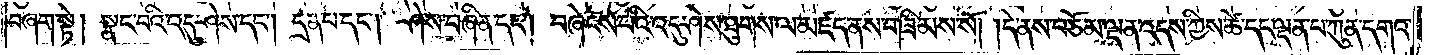བཞག་སྟེ། སྣང་བའི་འདུ་ཤེས་དང༌། དྲན་པ་དང༌། ཤེས་བཞིན་དང༌། བཞེངས་པའི་འདུ་ཤེས་ཐུགས་ལ་མཛད་ནས་གཟིམས་སོ། །དེ་ནས་བཅོམ་ལྡན་འདས་ཀྱིས་ཚེ་དང་ལྡན་པ་ཀུན་དགའ་
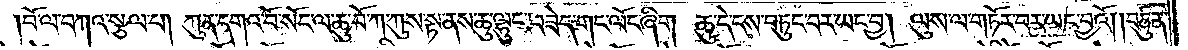བོ་ལ་བཀའ་སྩལ་པ། ཀུན་དགའ་བོ་སོང་ལ་ཆུ་བོ་ཀ་ཀུས་སྟ་ནས་ཆུ་ལྷུང་བཟེད་གང་ལོང་ཞིག །ཆུ་དེ་ངས་བཏུང་བར་ཡང་བྱ། ལུས་ལ་གཏོར་བར་ཡང་བྱའོ། །བཙུན་
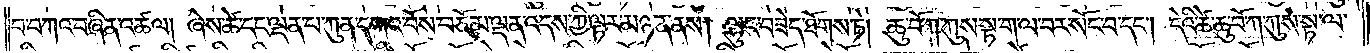པ་བཀའ་བཞིན་འཚལ། ཞེས་ཚེ་དང་ལྡན་པ་ཀུན་དགའ་བོས་བཅོམ་ལྡན་འདས་ཀྱི་ལྟར་མཉན་ནས། ལྷུང་བཟེད་ཐོགས་ཏེ། ཆུ་བོ་ཀ་ཀུས་སྟ་ག་ལ་བར་སོང་བ་དང༌། དེའི་ཚེ་ཆུ་བོ་ཀ་ཀུས་སྟ་ལ་
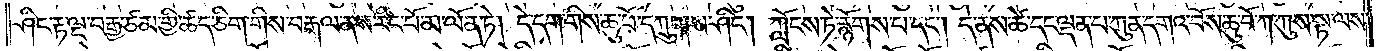ཤིང་རྟ་ལྔ་བརྒྱ་ཙམ་གྱི་ཚད་ཅིག་གིས་བརྒལ་ནས་རིང་པོ་མ་ལོན་ཏེ། དེ་དག་གིས་ཆུ་བོ་དཀྲུགས་ཤིང༌། ཀློངས་ཏེ་རྙོགས་པ་དང༌། དེ་ནས་ཚེ་དང་ལྡན་པ་ཀུན་དགའ་བོས་ཆུ་བོ་ཀ་ཀུས་སྟ་ལས་
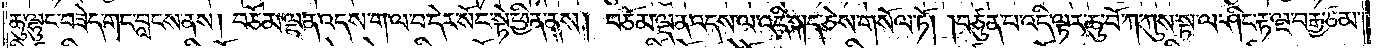ཆུ་ལྷུང་བཟེད་གང་བླངས་ནས། བཅོམ་ལྡན་འདས་ག་ལ་བ་དེར་སོང་སྟེ་ཕྱིན་ནས། བཅོམ་ལྡན་འདས་ལ་འདི་སྐད་ཅེས་གསོལ་ཏོ། །བཙུན་པ་འདི་ལྟར་ཆུ་བོ་ཀ་ཀུས་སྟ་ལ་ཤིང་རྟ་ལྔ་བརྒྱ་ཙམ་
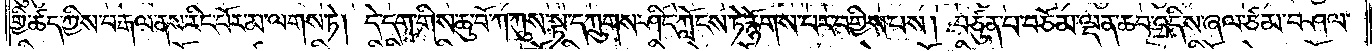གྱི་ཚད་ཀྱིས་བརྒལ་ནས་རིང་པོར་མ་ལགས་ཏེ། དེ་དག་གིས་ཆུ་བོ་ཀ་ཀུས་སྟ་དཀྲུགས་ཤིང་ཀློངས་ཏེ་རྙོགས་པར་བགྱིས་པས། བཙུན་པ་བཅོམ་ལྡན་ཆབ་འདིས་ཞལ་ཙམ་བཤལ་
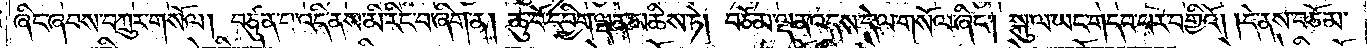ཞིང་ཞབས་བཀྲུར་གསོལ། །བཙུན་པ་འདི་ནས་མི་རིང་བ་ཞིག་ན། ཆུ་བོ་དབྱིག་ལྡན་མཆིས་ཏེ། བཅོམ་ལྡན་འདས་དེ་ལ་གསོལ་ཞིང༌། སྐུ་ལ་ཡང་གདབ་པར་བགྱིའོ། །དེ་ནས་བཅོམ་
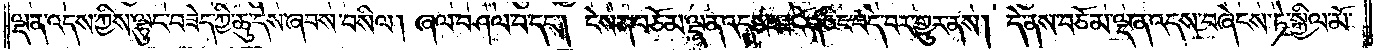ལྡན་འདས་ཀྱིས་ལྷུང་བཟེད་ཀྱི་ཆུ་དས་ཞབས་བསིལ། ཞལ་བཤལ་བ་དང༌། ངེས་ན་བཅོམ་ལྡན་འདས་(བཟོད)་ཅིང་བདེ་བར་གྱུར་ནས། དེ་ནས་བཅོམ་ལྡན་འདས་བཞེངས་ཏེ་སྐྱིལ་མོ་
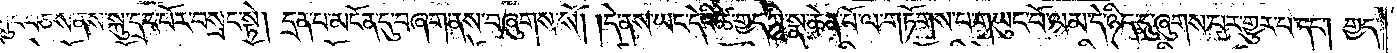ཀྲུང་བཅས་ནས་སྐུ་དྲང་པོར་བསྲང་སྟེ། དྲན་པ་མངོན་དུ་བཞག་ནས་བཞུགས་སོ། །དེ་ནས་ཡང་དེའི་ཚེ་གྱད་ཀྱི་སྣ་ཆེན་པོ་ལ་གཏོགས་པ་གཡུང་པོ་ལམ་དེ་ཉིད་དུ་ཞུགས་པར་གྱུར་བ་དང༌། གྱད་
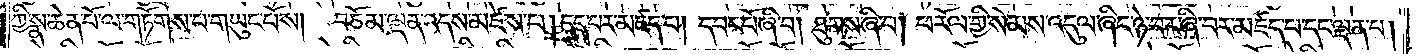ཀྱི་སྣ་ཆེན་པོ་ལ་གཏོགས་པ་གཡུང་པོས། བཅོམ་ལྡན་འདས་མཛེས་པ། དད་པར་མཛད་པ། དབང་པོ་ཞི་བ། ཐུགས་ཞི་བ། ཕ་རོལ་གྱི་སེམས་འདུལ་ཞིང་ཉེ་བར་ཞི་བར་མཛད་པ་དང་ལྡན་པ།
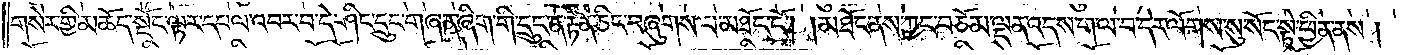གསེར་གྱི་མཆོད་སྡོང་ལྟར་དཔལ་འབར་བ་དེ་ཤིང་དྲུང་གཞན་ཞིག་གི་དྲུང་ན་རྟེན་ཅིང་བཞུགས་པ་མཐོང་ངོ༌། །མཐོང་ནས་ཀྱང་བཅོམ་ལྡན་འདས་ག་ལ་བ་དེར་ལོགས་སུ་སོང་སྟེ་ཕྱིན་ནས།
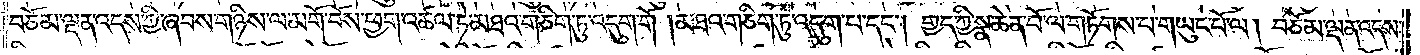བཅོམ་ལྡན་འདས་ཀྱི་ཞབས་གཉིས་ལ་མགོ་བོས་ཕྱག་འཚལ་ཏེ་མཐའ་གཅིག་ཏུ་འདུག་གོ །མཐའ་གཅིག་ཏུ་འདུག་པ་དང༌། གྱད་ཀྱི་སྣ་ཆེན་པོ་ལ་གཏོགས་པ་གཡུང་པོ་ལ། བཅོམ་ལྡན་འདས་
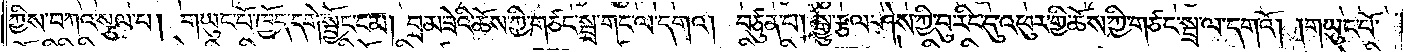ཀྱིས་བཀའ་སྩལ་པ། གཡུང་པོ་ཁྱོད་དགེ་སྦྱོང་ངམ། བྲམ་ཟེའི་ཆོས་ཀྱི་གཙང་སྦྲ་གང་ལ་དགའ། བཙུན་པ། སྒྱུ་རྩལ་ཤེས་ཀྱི་བུ་རིང་དུ་འཕུར་གྱི་ཆོས་ཀྱི་གཙང་སྦྲ་ལ་དགའོ། །གཡུང་པོ་
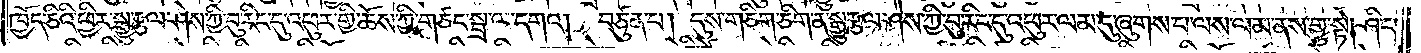ཁྱོད་ཅིའི་ཕྱིར་སྒྱུ་རྩལ་ཤེས་ཀྱི་བུ་རིང་དུ་འཕུར་གྱི་ཆོས་ཀྱི་གཙང་སྦྲ་ལ་དགའ། བཙུན་པ། དུས་གཅིག་ཅིག་ན་སྒྱུ་རྩལ་ཤེས་ཀྱི་བུ་རིང་དུ་འཕུར་ལམ་དུ་ཞུགས་པ་ལས་ལམ་ནས་གྱུ་སྟེ། ཤིང་
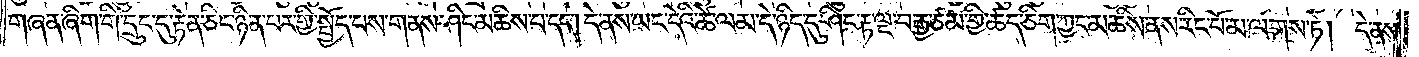གཞན་ཞིག་གི་དྲུང་དུ་རྟེན་ཅིང་ཉིན་པར་གྱི་སྤྱོད་པས་གནས་ཤིང་མཆིས་པ་དང༌། དེ་ནས་ཡང་དེའི་ཚེ་ལམ་དེ་ཉིད་དུ་ཤིང་རྟ་ལྔ་བརྒྱ་ཙམ་གྱི་ཚད་ཅིག་ཀྱང་མཆིས་ནས་རིང་པོ་མ་ལགས་ཏེ། དེ་ནས་
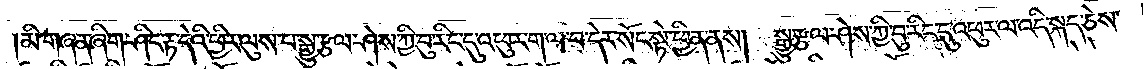མི་གཞན་ཞིག་ཤིང་རྟ་དེའི་ཕྱིར་ལུས་པ་སྒྱུ་རྩལ་ཤེས་ཀྱི་བུ་རིང་དུ་འཕུར་ག་ལ་བ་དེར་སོང་སྟེ་ཕྱིན་ནས། སྒྱུ་རྩལ་ཤེས་ཀྱི་བུ་རིང་དུ་འཕུར་ལ་འདི་སྐད་ཅེས་
